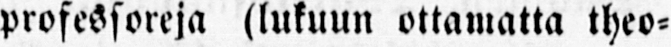prosessoreja (lukuun ottamatta theo-
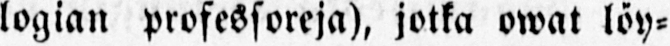logian prosessoreja), jotka owat löy-
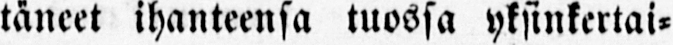täneet ihanteensa tuossa yksinkertai-
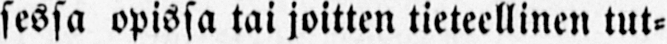sessa opissa tai joitten tieteellinen tut-
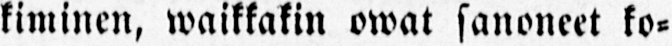kiminen, waikkakin owat sanoneet ko-
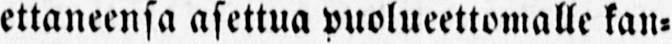ettaneensa asettua puolueettomalle kan-
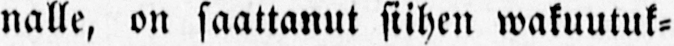nalle, on saattanut siihen wakuutuk-
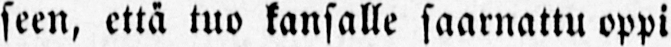seen, että tuo kansalle saarnattu oppi
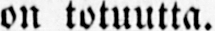on totuutta.
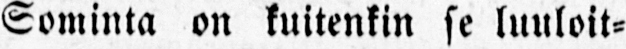Sominta on kuitenkin se luuloit-
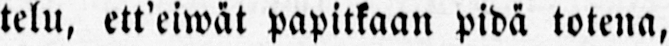telu, ett'eiwät papitkaan pidä totena,
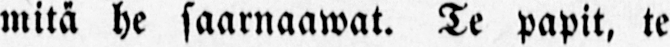mitä he saarnaawat. Te papit, te
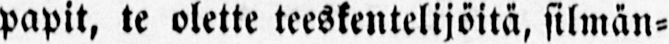papit, te olette teeskentelijöitä, silmän-
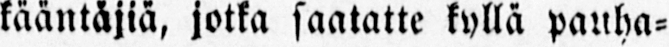kääntäjiä, jotka saatatte kyllä pauha-
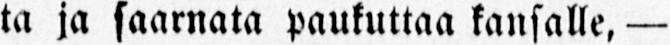ta ja saarnata paukuttaa kansalle, —
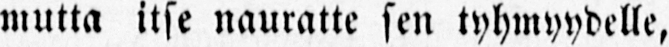mutta itse nauratte sen tyhmyydelle,
